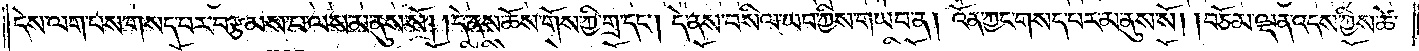དེས་ལག་པས་གསད་པར་བརྩམས་པ་ལས་མ་ནུས་སོ། །དེ་ནས་ཆོས་གོས་ཀྱི་གྲ་དང༌། དེ་ནས་བསིལ་ཡབ་ཀྱིས་གཡབ་ན། འོན་ཀྱང་གསད་པར་མ་ནུས་སོ། །བཅོམ་ལྡན་འདས་ཀྱིས་ཚེ་
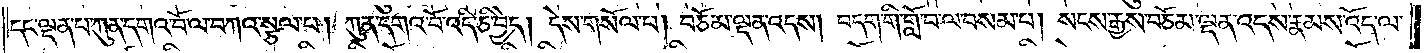དང་ལྡན་པ་ཀུན་དགའ་བོ་ལ་བཀའ་སྩལ་པ། ཀུན་དགའ་བོ་འདི་ཅི་བྱེད། དེས་གསོལ་པ། བཅོམ་ལྡན་འདས། བདག་གི་གློ་བ་ལ་བསམ་པ། སངས་རྒྱས་བཅོམ་ལྡན་འདས་རྣམས་འོད་ལ་
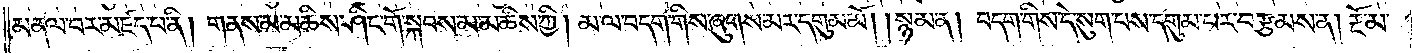མནལ་བར་མཛད་པ་ནི། གནས་མ་མཆིས་ཤིང་གོ་སྐབས་མ་མཆིས་ཀྱི། མ་ལ་བདག་གིས་ཞུགས་མར་དགུམ་མོ། །སྙམ་ན། བདག་གིས་དེ་སུག་པས་དགུམ་པར་བརྩམས་ན། རྔོ་མ་
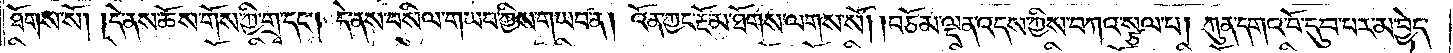ཐོགས་སོ། །དེ་ནས་ཆོས་གོས་ཀྱི་གྲྭ་དང༌། དེ་ནས་བསིལ་གཡབ་ཀྱིས་གཡབ་ན། འོན་ཀྱང་རྔོ་མ་ཐོགས་ལགས་སོ། །བཅོམ་ལྡན་འདས་ཀྱིས་བཀའ་སྩལ་པ། ཀུན་དགའ་བོ་དུབ་པར་མ་བྱེད་
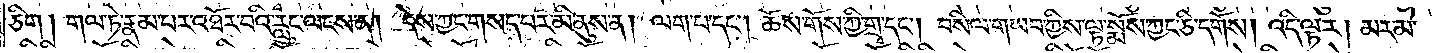ཅིག། གལ་ཏེ་རྣམ་པར་འཐོར་བའི་རླུང་ལངས་ན། དེས་ཀྱང་གསད་པར་མི་ནུས་ན། ལག་པ་དང༌། ཆོས་གོས་ཀྱི་གྲྭ་དང༌། བསིལ་གཡབ་ཀྱིས་ལྟ་སྨོས་ཀྱང་ཅི་དགོས། འདི་ལྟར། མར་མེ་
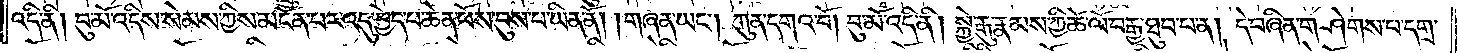འདི་ནི། བུ་མོ་འདིས་སེམས་ཀྱིས་མངོན་པར་འདུ་བྱེད་པ་ཆེན་པོས་བུས་པ་ཡིན་ནོ། །གཞན་ཡང༌། ཀུན་དགའ་བོ། བུ་མོ་འདི་ནི། སྐྱེ་རྒུ་རྣམས་ཀྱི་ཚེ་ལོ་བརྒྱ་ཐུབ་པ་ན། དེ་བཞིན་གཤེགས་པ་དགྲ་
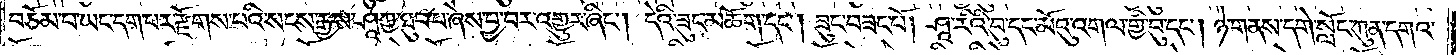བཅོམ་པ་ཡང་དག་པར་རྫོགས་པའི་སངས་རྒྱས་ཤཱཀྱ་ཐུབ་པ་ཞེས་བྱ་བར་འགྱུར་ཞིང༌། དེའི་ཟུང་མཆོག་དང༌། ཟུང་བཟང་པོ། ཤཱ་རིའི་བུ་དང་མོའུ་འགལ་གྱི་བུ་དང༌། ཉེ་གནས་དགེ་སློང་ཀུན་དགའ་
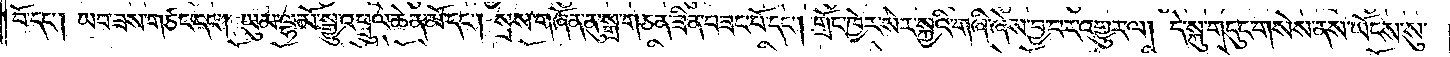བོ་དང༌། ཡབ་ཟས་གཙང་དང༌། ཡུམ་ལྷ་མོ་སྒྱུ་འཕྲུལ་ཆེན་མོ་དང༌། སྲས་གཞོན་ནུ་སྒྲ་གཅན་ཟིན་བཟང་པོ་དང༌། གྲོང་ཁྱེར་སེར་སྐྱའི་གཞི་ཞེས་བྱ་བར་འགྱུར་ལ། དེ་སྐུ་གདུང་གསེས་ནས་ཡོངས་སུ་
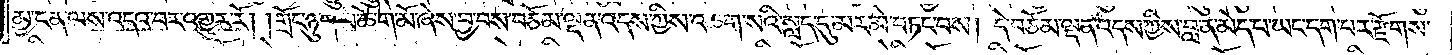མྱ་ངན་ལས་འདའ་བར་འགྱུར་རོ། །གྲོང་ཉུག་མ་ཆེ་གེ་མོ་ཞེས་བྱ་བས་བཅོམ་ལྡན་འདས་ཀྱིས་འཆག་སའི་སླད་དུ་མར་མེ་བཏང་བས། དེ་བཅོམ་ལྡན་འདས་ཀྱིས་བླ་ན་མེད་པ་ཡང་དག་པར་རྫོགས་
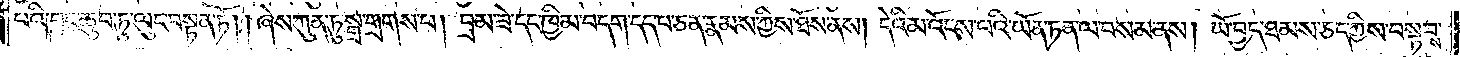པའི་བྱང་ཆུབ་ཏུ་ལུང་བསྟན་ཏོ། །ཞེས་ཀུན་ཏུ་སྒྲ་གྲགས་པ། བྲམ་ཟེ་དང་ཁྱིམ་བདག་དད་པ་ཅན་རྣམས་ཀྱིས་ཐོས་ནས། དེའི་མ་འོངས་པའི་ཡོན་ཏན་ལ་བསམ་ནས། ཡོ་བྱད་ཐམས་ཅད་ཀྱིས་བསྟབས་
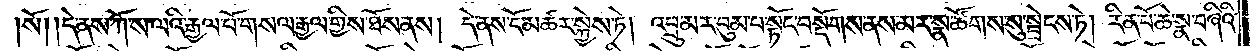སོ། །དེ་ནས་ཀོ་ས་ལའི་རྒྱལ་པོ་གསལ་རྒྱལ་གྱིས་ཐོས་ནས། དེ་ནས་ངོ་མཚར་སྐྱེས་ཏེ། འབྲུ་མར་བུམ་པ་སྟོང་བསྡོགས་ནས་མར་སྣ་ཚོགས་སུ་སྦྲེངས་ཏེ། རིན་པོ་ཆེ་སྣ་བཞིའི་
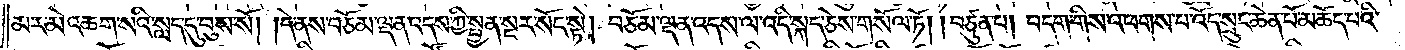མར་མེ་འཆག་སའི་སླད་དུ་བུས་སོ། །དེ་ནས་བཅོམ་ལྡན་འདས་ཀྱི་སྤྱན་སྔར་སོང་སྟེ། བཅོམ་ལྡན་འདས་ལ་འདི་སྐད་ཅེས་གསོལ་ཏོ། །བཙུན་པ། བདག་གིས་འཕགས་པ་འོད་སྲུང་ཆེན་པོ་མཆོད་པའི་
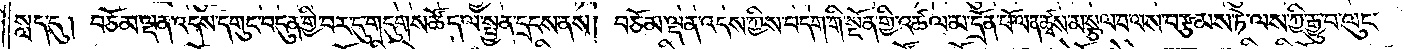སླད་དུ། བཅོམ་ལྡན་འདས་དགུང་བདུན་གྱི་བར་དུ་གདུགས་ཚོད་ལ་སྤྱན་དྲངས་ནས། བཅོམ་ལྡན་འདས་ཀྱིས་བདག་གི་སྔོན་གྱི་འཚལ་མ་དྲོན་པོ་ལན་ཚྭས་མ་སྩལ་པ་ལས་བརྩམས་ཏེ་ལས་ཀྱི་རྒྱུ་བ་ལུང་
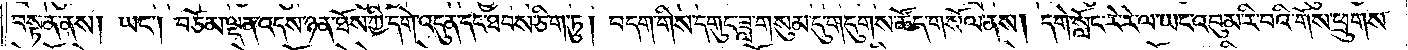བསྟན་ནས། ཡང༌། བཅོམ་ལྡན་འདས་ཉན་ཐོས་ཀྱི་དགེ་འདུན་དང་ཐབས་ཅིག་ཏུ། བདག་གིས་དགུང་ཟླ་གསུམ་དུ་གདུགས་ཚོད་གསོལ་ནས། དགེ་སློང་རེ་རེ་ལ་ཡང་འབུམ་རི་བའི་གོས་ཕྲུགས་
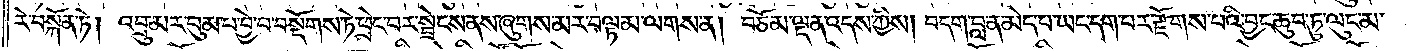རེ་བསྐོན་ཏེ། འབྲུ་མར་བུམ་པ་བྱེ་བ་བསྔོགས་ཏེ་ཕྲེང་བར་སྦྲེངས་ནས་ཞུགས་མར་བལྟམ་ལགས་ན། བཅོམ་ལྡན་འདས་ཀྱིས། བདག་བླ་ན་མེད་པ་ཡང་དག་པར་རྫོགས་པའི་བྱང་ཆུབ་ཏུ་ལུང་མ་
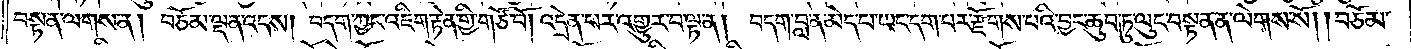བསྟན་ལགས་ན། བཅོམ་ལྡན་འདས། བདག་ཀྱང་འཇིག་རྟེན་གྱི་གཙོ་བོ། འདྲེན་པར་འགྱུར་བ་ལྟ་ན། བདག་བླ་ན་མེད་པ་ཡང་དག་པར་རྫོགས་པའི་བྱང་ཆུབ་ཏུ་ལུང་བསྟན་ན་ལེགས་སོ། །བཅོམ་
